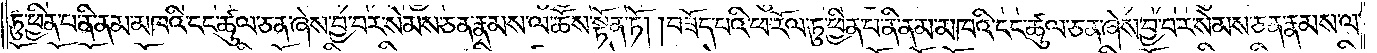ཏུ་ཕྱིན་པ་ནི་ནམ་མཁའི་ངང་ཚུལ་ཅན་ཞེས་བྱ་བར་སེམས་ཅན་རྣམས་ལ་ཆོས་སྟོན་ཏོ། །བཟོད་པའི་ཕ་རོལ་ཏུ་ཕྱིན་པ་ནི་ནམ་མཁའི་ངང་ཚུལ་ཅན་ཞེས་བྱ་བར་སེམས་ཅན་རྣམས་ལ་
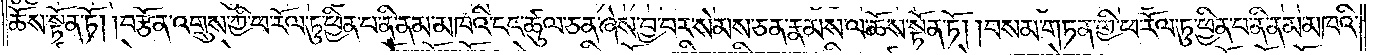ཆོས་སྟོན་ཏོ། །བརྩོན་འགྲུས་ཀྱི་ཕ་རོལ་ཏུ་ཕྱིན་པ་ནི་ནམ་མཁའི་ངང་ཚུལ་ཅན་ཞེས་བྱ་བར་སེམས་ཅན་རྣམས་ལ་ཆོས་སྟོན་ཏོ། །བསམ་གཏན་གྱི་ཕ་རོལ་ཏུ་ཕྱིན་པ་ནི་ནམ་མཁའི་
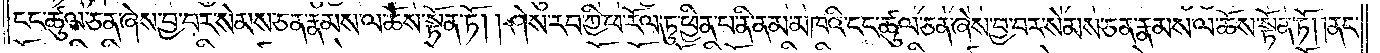ངང་ཚུལ་ཅན་ཞེས་བྱ་བར་སེམས་ཅན་རྣམས་ལ་ཆོས་སྟོན་ཏོ། །ཤེས་རབ་ཀྱི་ཕ་རོལ་ཏུ་ཕྱིན་པ་ནི་ནམ་མཁའི་ངང་ཚུལ་ཅན་ཞེས་བྱ་བར་སེམས་ཅན་རྣམས་ལ་ཆོས་སྟོན་ཏོ། །ནང་
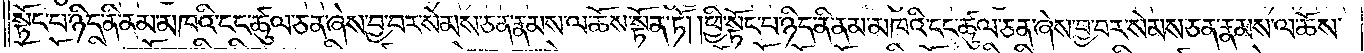སྟོང་པ་ཉིད་ནི་ནམ་མཁའི་ངང་ཚུལ་ཅན་ཞེས་བྱ་བར་སེམས་ཅན་རྣམས་ལ་ཆོས་སྟོན་ཏོ། །ཕྱི་སྟོང་པ་ཉིད་ནི་ནམ་མཁའི་ངང་ཚུལ་ཅན་ཞེས་བྱ་བར་སེམས་ཅན་རྣམས་ལ་ཆོས་
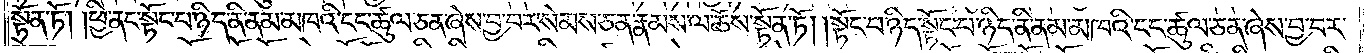སྟོན་ཏོ། །ཕྱི་ནང་སྟོང་པ་ཉིད་ནི་ནམ་མཁའི་ངང་ཚུལ་ཅན་ཞེས་བྱ་བར་སེམས་ཅན་རྣམས་ལ་ཆོས་སྟོན་ཏོ། །སྟོང་པ་ཉིད་སྟོང་པ་ཉིད་ནི་ནམ་མཁའི་ངང་ཚུལ་ཅན་ཞེས་བྱ་བར་
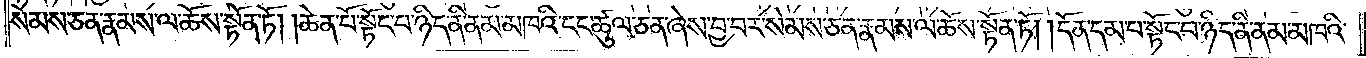སེམས་ཅན་རྣམས་ལ་ཆོས་སྟོན་ཏོ། །ཆེན་པོ་སྟོང་པ་ཉིད་ནི་ནམ་མཁའི་ངང་ཚུལ་ཅན་ཞེས་བྱ་བར་སེམས་ཅན་རྣམས་ལ་ཆོས་སྟོན་ཏོ། །དོན་དམ་པ་སྟོང་པ་ཉིད་ནི་ནམ་མཁའི་
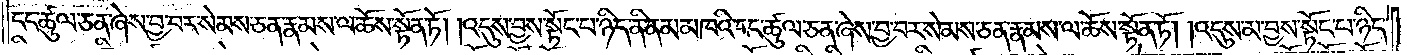ངང་ཚུལ་ཅན་ཞེས་བྱ་བར་སེམས་ཅན་རྣམས་ལ་ཆོས་སྟོན་ཏོ། །འདུས་བྱས་སྟོང་པ་ཉིད་ནི་ནམ་མཁའི་ངང་ཚུལ་ཅན་ཞེས་བྱ་བར་སེམས་ཅན་རྣམས་ལ་ཆོས་སྟོན་ཏོ། །འདུས་མ་བྱས་སྟོང་པ་ཉིད་
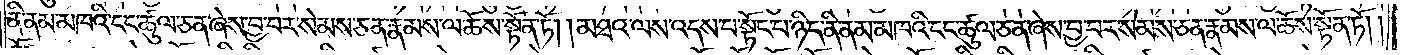ནི་ནམ་མཁའི་ངང་ཚུལ་ཅན་ཞེས་བྱ་བར་སེམས་ཅན་རྣམས་ལ་ཆོས་སྟོན་ཏོ། །མཐའ་ལས་འདས་པ་སྟོང་པ་ཉིད་ནི་ནམ་མཁའི་ངང་ཚུལ་ཅན་ཞེས་བྱ་བར་སེམས་ཅན་རྣམས་ལ་ཆོས་སྟོན་ཏོ། །
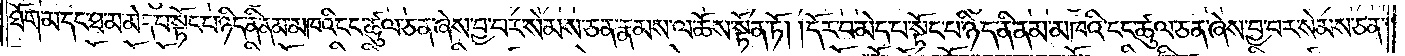ཐོག་མ་དང་ཐ་མ་མེད་པ་སྟོང་པ་ཉིད་ནི་ནམ་མཁའི་ངང་ཚུལ་ཅན་ཞེས་བྱ་བར་སེམས་ཅན་རྣམས་ལ་ཆོས་སྟོན་ཏོ། དོར་བ་མེད་པ་སྟོང་པ་ཉིད་ནི་ནམ་མཁའི་ངང་ཚུལ་ཅན་ཞེས་བྱ་བར་སེམས་ཅན་
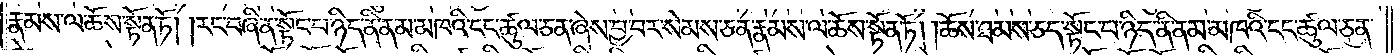རྣམས་ལ་ཆོས་སྟོན་ཏོ། །རང་བཞིན་སྟོང་པ་ཉིད་ནི་ནམ་མཁའི་ངང་ཚུལ་ཅན་ཞེས་བྱ་བར་སེམས་ཅན་རྣམས་ལ་ཆོས་སྟོན་ཏོ། །ཆོས་ཐམས་ཅད་སྟོང་པ་ཉིད་ནི་ནམ་མཁའི་ངང་ཚུལ་ཅན་
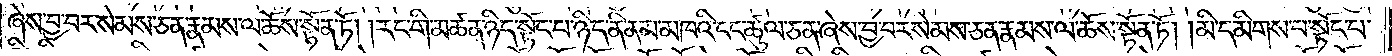ཞེས་བྱ་བར་སེམས་ཅན་རྣམས་ལ་ཆོས་སྟོན་ཏོ། །རང་གི་མཚན་ཉིད་སྟོང་པ་ཉིད་ནི་ནམ་མཁའི་ངང་ཚུལ་ཅན་ཞེས་བྱ་བར་སེམས་ཅན་རྣམས་ལ་ཆོས་སྟོན་ཏོ། །མི་དམིགས་པ་སྟོང་པ་
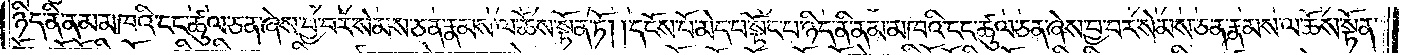ཉིད་ནི་ནམ་མཁའི་ངང་ཚུལ་ཅན་ཞེས་བྱ་བར་སེམས་ཅན་རྣམས་ལ་ཆོས་སྟོན་ཏོ། །དངོས་པོ་མེད་པ་སྟོང་པ་ཉིད་ནི་ནམ་མཁའི་ངང་ཚུལ་ཅན་ཞེས་བྱ་བར་སེམས་ཅན་རྣམས་ལ་ཆོས་སྟོན་
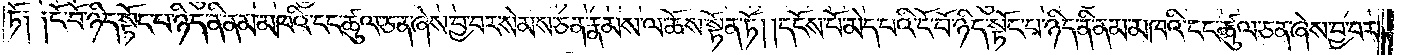ཏོ༑ ༑ངོ་བོ་ཉིད་སྟོང་པ་ཉིད་ནི་ནམ་མཁའི་ངང་ཚུལ་ཅན་ཞེས་བྱ་བར་སེམས་ཅན་རྣམས་ལ་ཆོས་སྟོན་ཏོ། །དངོས་པོ་མེད་པའི་ངོ་བོ་ཉིད་སྟོང་པ་ཉིད་ནི་ནམ་མཁའི་ངང་ཚུལ་ཅན་ཞེས་བྱ་བར་
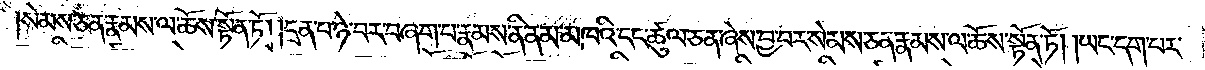སེམས་ཅན་རྣམས་ལ་ཆོས་སྟོན་ཏོ། །དྲན་པ་ཉེ་བར་བཞག་པ་རྣམས་ནི་ནམ་མཁའི་ངང་ཚུལ་ཅན་ཞེས་བྱ་བར་སེམས་ཅན་རྣམས་ལ་ཆོས་སྟོན་ཏོ། །ཡང་དག་པར་
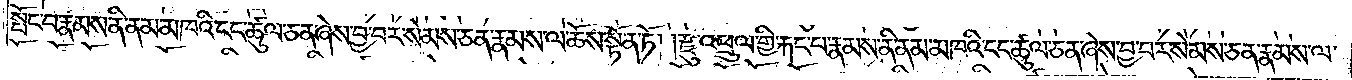སྤོང་བ་རྣམས་ནི་ནམ་མཁའི་ངང་ཚུལ་ཅན་ཞེས་བྱ་བར་སེམས་ཅན་རྣམས་ལ་ཆོས་སྟོན་ཏོ། །རྫུ་འཕྲུལ་གྱི་རྐང་པ་རྣམས་ནི་ནམ་མཁའི་ངང་ཚུལ་ཅན་ཞེས་བྱ་བར་སེམས་ཅན་རྣམས་ལ་
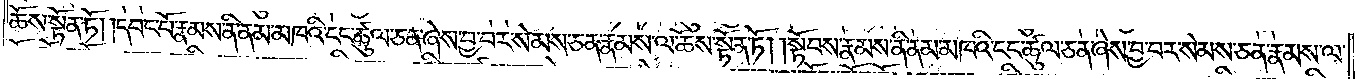ཆོས་སྟོན་ཏོ། །དབང་པོ་རྣམས་ནི་ནམ་མཁའི་ངང་ཚུལ་ཅན་ཞེས་བྱ་བར་སེམས་ཅན་རྣམས་ལ་ཆོས་སྟོན་ཏོ། །སྟོབས་རྣམས་ནི་ནམ་མཁའི་ངང་ཚུལ་ཅན་ཞེས་བྱ་བར་སེམས་ཅན་རྣམས་ལ་
